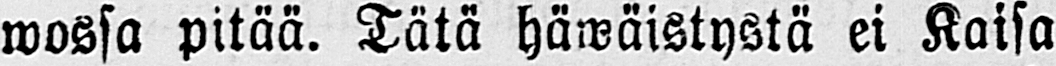wossa pitää. Tätä häwäistystä ei Kaisa
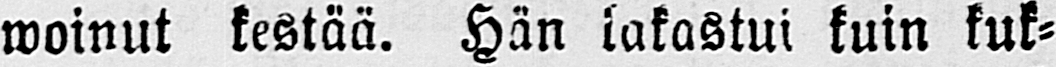woinut kestää. Hän lakastui kuin kuk-
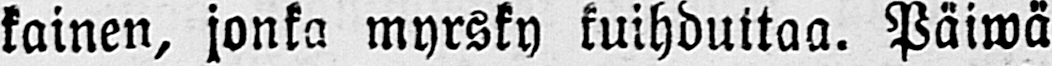kainen, jonka myrsky kuihduttaa. Päiwä
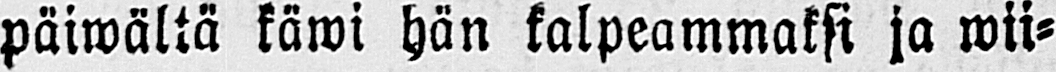päiwältä käwi hän kalpeammaksi ja wii-
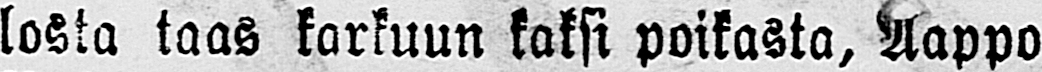koska taas karkuun kaksi poikasta, Aappo
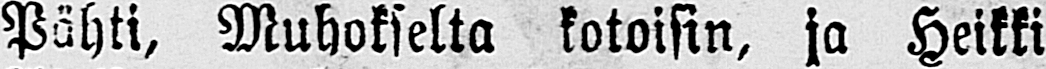Pähti, Muhokselta kotoisin, ja Heikki
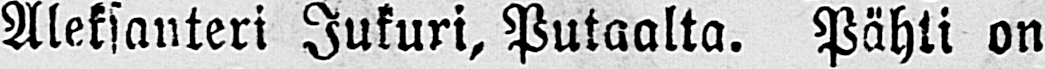Aleksanteri Jukuri, Putaalta. Pähti on
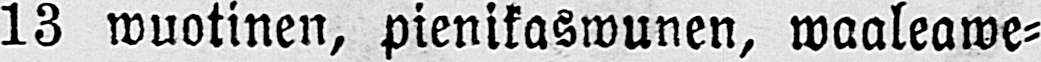13 wuotinen, pienikaswunen, waaleawe-
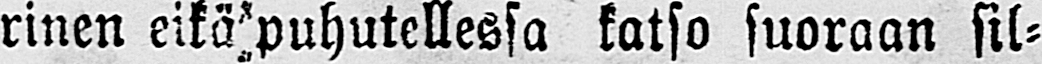rinen eikä puhutellessa katso suoraan sil-
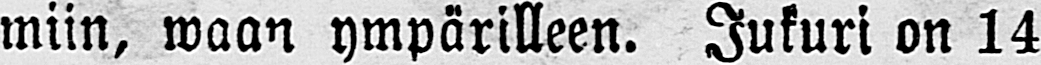miin, waan ympärilleen. Jukuri on 14
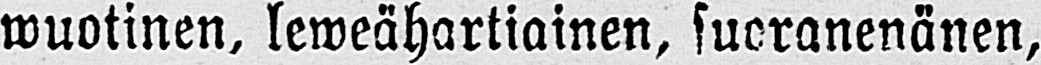wuotinen, leweähartiainen, suoranenänen,
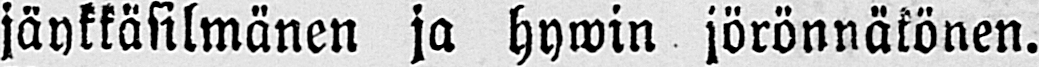jäykkäsilmänen ja hywin jörönnäkönen.
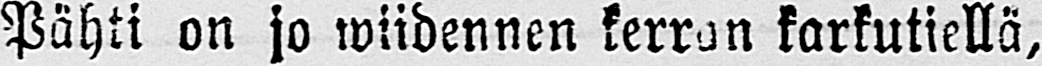Pähti on jo wiidennen kerran karkutiellä,
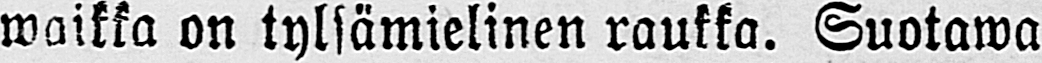waikka on tylsämielinen raukka. Suotawa
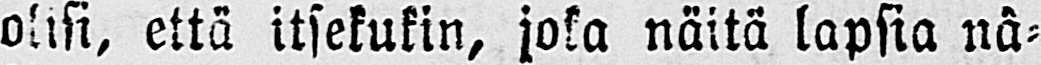olisi, että itsekukin, joka näitä lapsia nä-
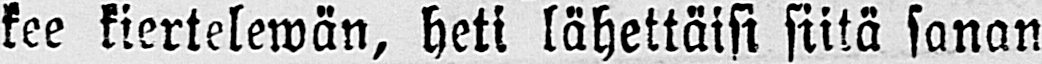kee kiertelewän, heti lähettäisi siitä sanan
